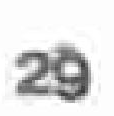29
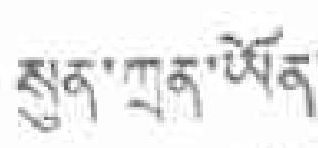སུན་ཀྲན་ཡོན་
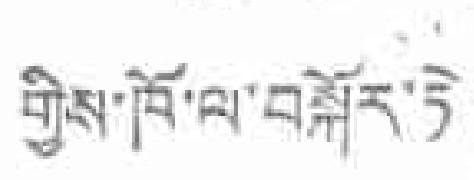གྱིས་ཁོ་ལ་བསྐོར་ཏེ་
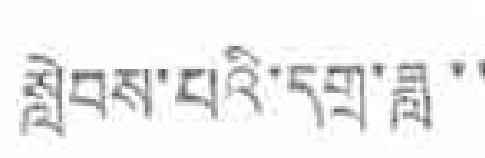སླེབས་པའི་དགྲ་ཟླ་་
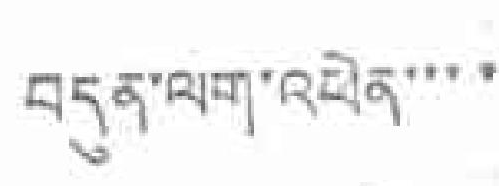བདུན་ལག་འཕེན་་་་
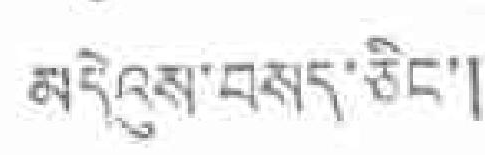མདེའུས་བསད་ཅིང་།
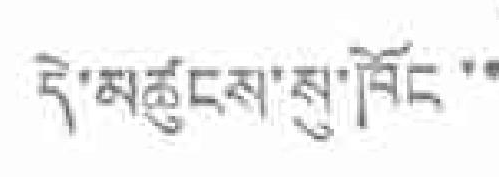དེ་མཚུངས་སུ་ཁོང་་
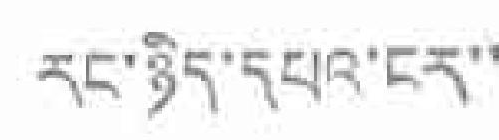རང་ཉིད་དཔའ་ངར་་
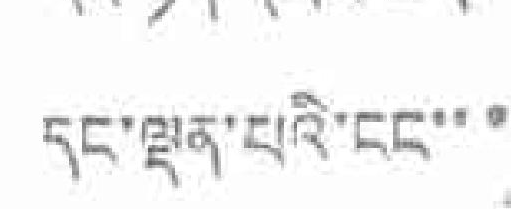དང་ལྡན་པའི་ངང་་་
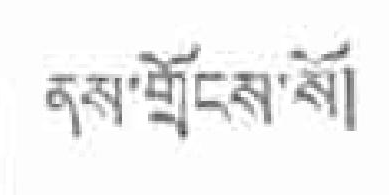ནས་གྲོངས་སོ།
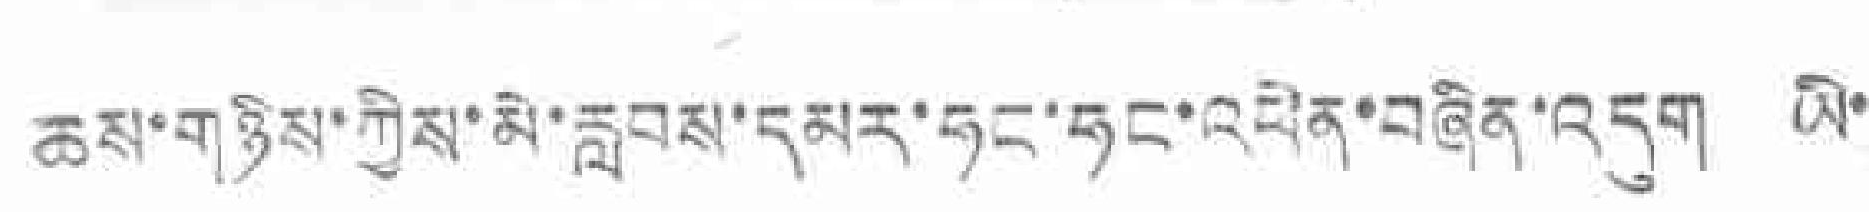ཆས་གཉིས་ཀྱིས་མེ་རླབས་དམར་ཧང་ཧང་འཕེན་བཞིན་འདུག ཡི་
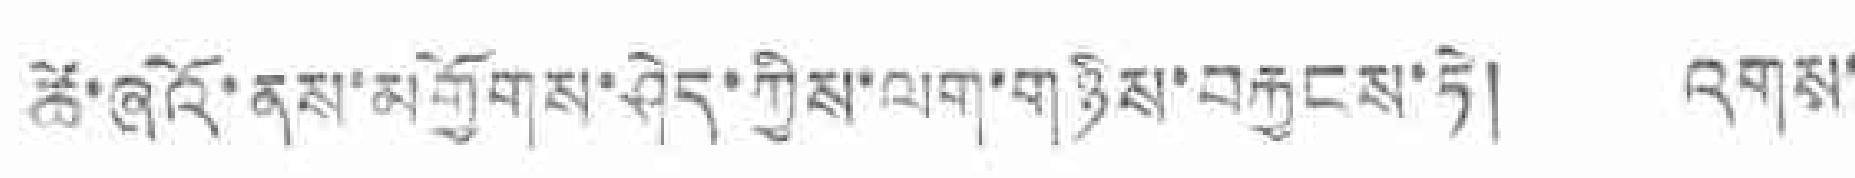ཚེ་ཞའོ་ནས་མགྱོགས་ཤེད་ཀྱིས་ལག་གཉིས་བརྐྱངས་ཏེ། འགས་
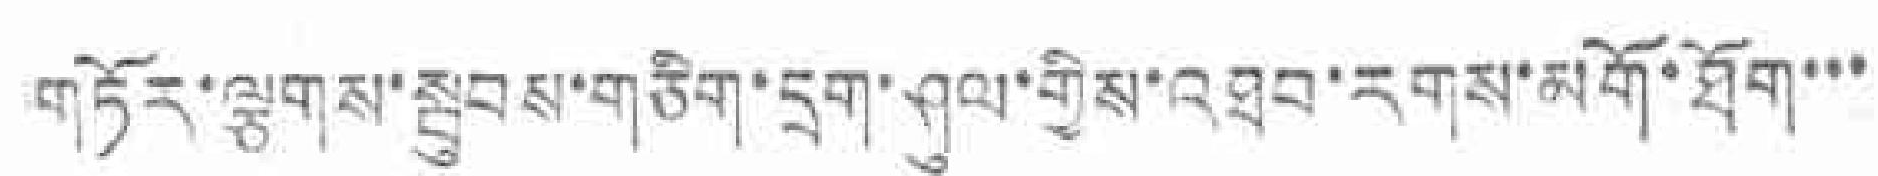གཏོར་ལྕགས་སྦུབས་གཅིག་དྲག་ཤུལ་གྱིས་འཐབ་རགས་མགོ་ཐོག་་་
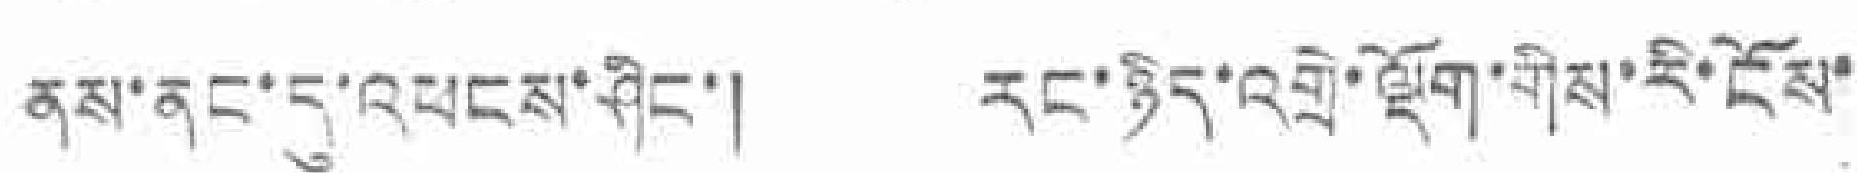ནས་ནང་དུ་འཕངས་ཤིང་། རང་ཉིད་འགྲེ་ལྡོག་གིས་རི་ངོས་
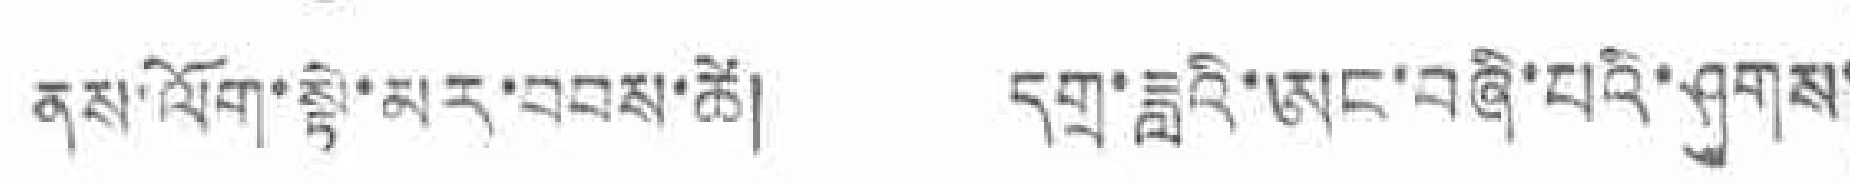ནས་ལོག་སྟེ་མར་བབས་ཚེ། དགྲ་ཟླའི་ཨང་བཞི་པའི་ཤུགས་
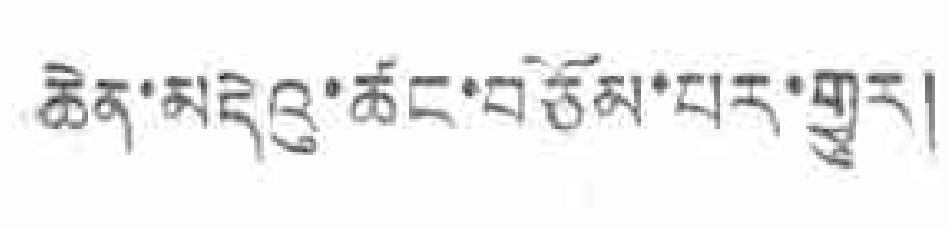ཆེན་མདེའུ་ཚང་བཅོམ་པར་གྱུར།
